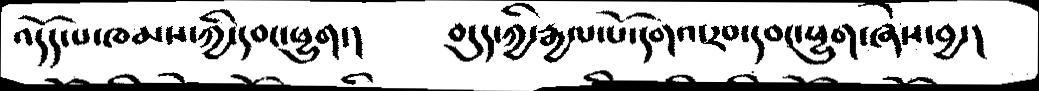འདོད་པ་ཁམས་ཀྱི་དབང་ཕྱུག་།      བདུད་ཀྱི་རྒྱལ་པོ་དགའ་རབ་དབང་ཕྱུག་ཞེས་བྱ་།
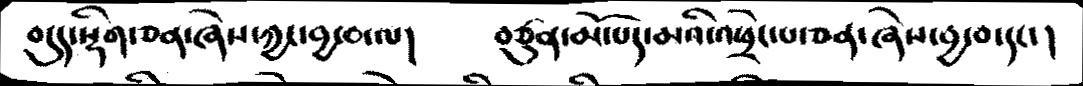བདུད་སྡིག་ཅན་ཞེས་ཀྱང་བྱ་བ་ལ།         བཙུན་མོ་པད་མའི་འཕྲེང་པ་ཅན་ཞེས་བྱ་བ་དང་།
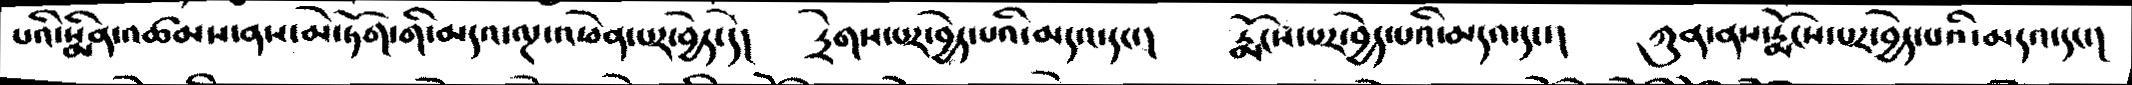པའི་སྨིན་འཚམས་ནས་མེ་ཏོག་གི་མདའ་ལྔ་འཕེན་པར་བྱེད་དེ།     དྲེགས་པར་བྱེད་པའི་མདའ་དང་།   རྨོངས་པར་བྱེད་པའི་མདའ་དང་།   ཀུན་ནས་རྨོངས་པར་བྱེད་པའི་མདའ་དང་།
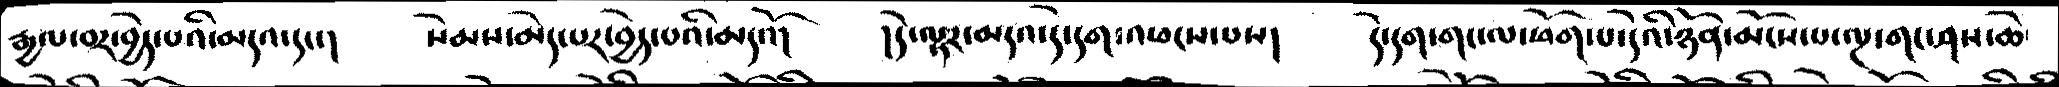རྒྱལ་བར་བྱེད་པའི་མདའ་དང་།     སེམས་མེད་པར་བྱེད་པའི་མདའོ།    །དེ་ལྟར་མདའ་དེ་དག་འཕངས་པས།     དེ་དག་གང་ལ་ཕོག་པ་དེའི་ཉོན་མོངས་པ་ལྔ་གང་ཤས་ཆེ་
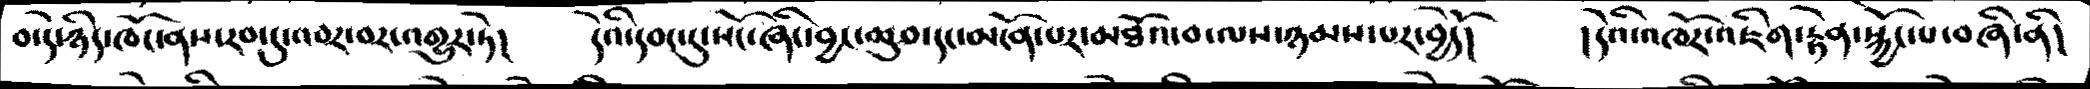བ་དེ་ཉིད་ཁོང་ནས་རབ་དུ་འབར་བར་འགྱུར་ཏེ།    དེའི་དབང་དུ་སོང་ཞིང་བྱང་ཆུབ་དང་མངོན་པར་མཐོའ་བ་ལས་ཉམས་པར་བྱེདོ།    །དེའི་འཁོར་འཇིག་རྟེན་སྐྱོང་པ་བཞི་ནི།
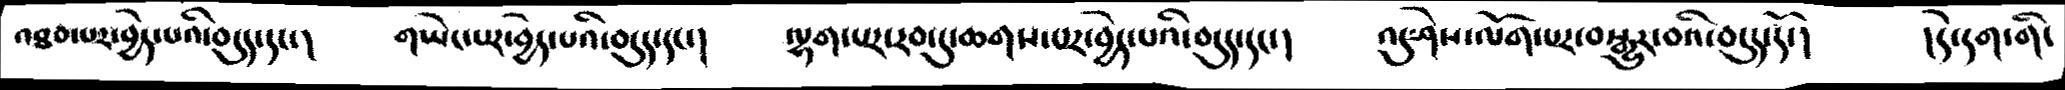འཐབ་པར་བྱེད་པའི་བདུད་དང་།  གཡེང་པར་བྱེད་པའི་བདུད་དང་།   ལྷག་པར་རབ་ཏུ་ཆགས་པར་བྱེད་པའི་བདུད་དང་།   འདུ་ཤེས་ལོག་པར་བསྒྱུར་བའི་བདུད་དོ།   །དེ་དག་གི་
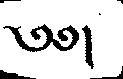༄༅།
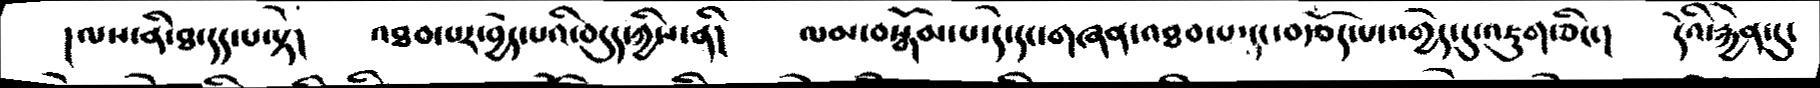།ལས་ནི་ཐ་དད་པ་སྟེ།  འཐབ་པར་བྱེད་པའི་བདུད་ཀྱིས་ནི།  ལམ་བསྒོམ་པ་དེ་དང་གཞན་འཐབ་པ་དང་བརྩོད་པ་འགྱེད་དུ་འཇུག་ཅིང་།  དེའི་རྐྱེན་དུ་
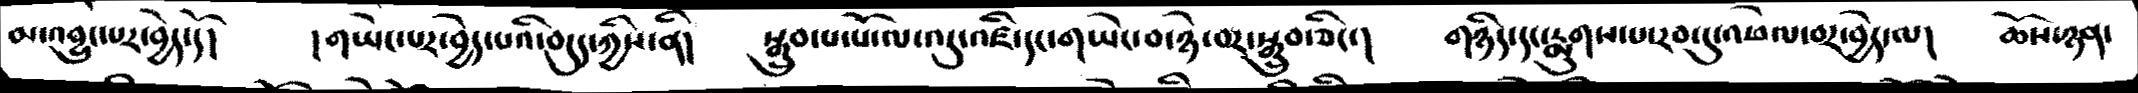མ་འབྱུང་པར་བྱེད་དོ།   །གཡེང་པར་བྱེད་པའི་བདུད་ཀྱིས་ནི།  སྒྲུབ་པ་པོ་ལ་འདུ་འཛི་དང་གཡེང་བ་ཉེ་བར་སྒྲུབ་ཅིང་།  གཉིད་དང་རྨུགས་པ་རབ་དུ་འཕེལ་བར་བྱེད་ལ།  ཆོས་ཉན་
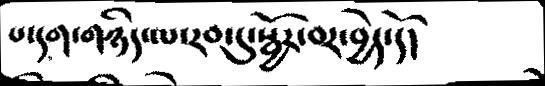པ་དག་གཉིད་ལ་རབ་དུ་སྦྱོར་བར་བྱེད་དོ།
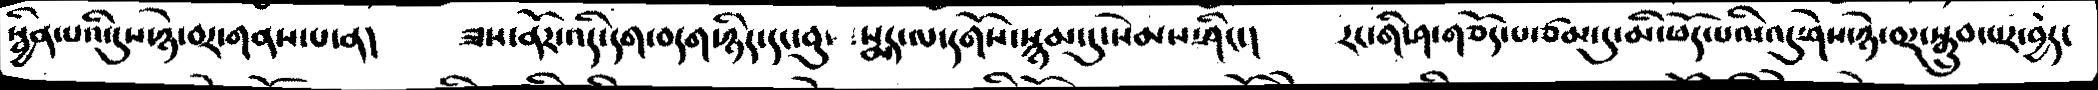སྦྱིན་པའི་དུས་ཉེ་བར་གནས་པ་ན།    ཟས་ནོར་འདི་དག་བདག་ཉིད་དང་བུ་སྨད་ལ་དགོས་སྙམ་དུ་སེམས་ཤིང་།   རང་གི་ཤ་གཅོད་པ་ཙམ་དུ་མི་ཕོད་པའི་འདུ་ཤེས་ཉེ་བར་སྒྲུབ་པར་བྱེད་
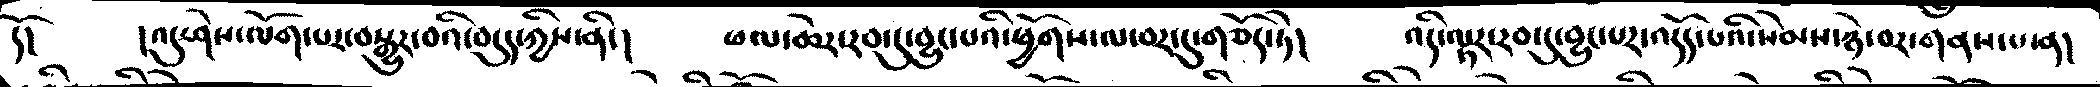དོ།     །འདུ་ཤེས་ལོག་པར་བསྒྱུར་བའི་བདུད་ཀྱིས་ནི་།     ཕལ་ཆེར་རབ་དུ་བྱུང་པའི་ཕྱོགས་ལ་བར་དུ་གཅོད་ཏེ།    འདི་ལྟར་རབ་དུ་བྱུང་པར་འདོད་པའི་སེམས་ཉེ་བར་གནས་པ་ན།
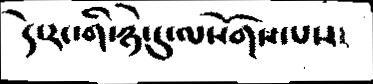དེ་རང་གི་ཉེ་དུ་ལསོགས་པས།
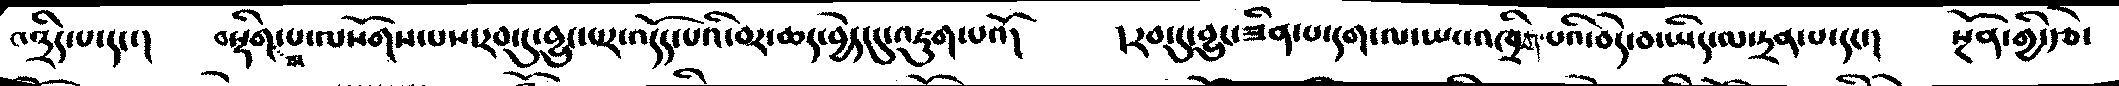འབྲིད་པ་དང་།  བསྡིགས་པ་ལསོགས་པས་རབ་དུ་བྱུང་པར་འདོད་པའི་བར་ཆད་བྱེད་དུ་འཇུག་པའོ།   །རབ་དུ་བྱང་ཟིན་པ་དག་ལ་ཡང་འཁྲིག་པའི་བདེ་བ་ཡིད་ལ་དྲན་པ་དང་།  སྔོན་གྱི་རྩེ་
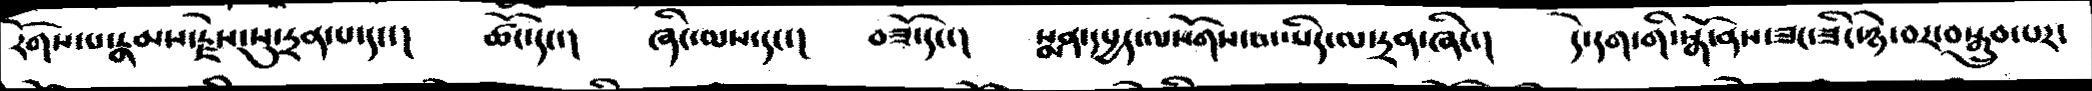རོགས་པ་རྣམས་རྗེས་སུ་དྲན་པ་དང་།   ཚོང་དང་།  ཞིང་ལས་དང་།   བཟོ་དང་།   སྨན་དཔྱད་ལསོགས་པ་ཡིད་ལ་དྲན་ཞིང་།  དེ་དག་གི་སྒོ་ནས་ཟང་ཟིང་ཉེ་བར་བསྒྲུབ་པར་
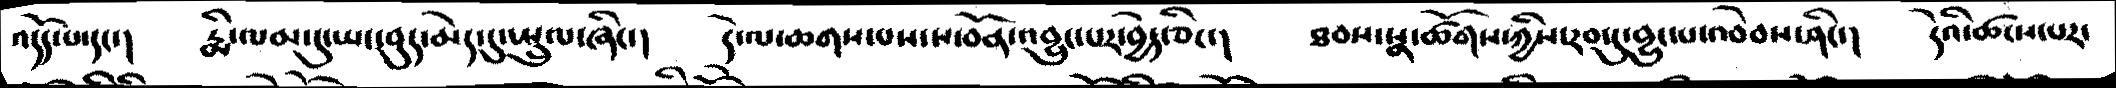འདོད་པ་དང་།  རྨི་ལམ་དུ་ཡང་བུད་མེད་དུ་སྤྲུལ་ཞིང་།   དེ་ལ་ཆགས་པས་ས་བོན་འབྱུང་པར་བྱེད་ཅིང་།  ཐབས་སྣ་ཚོགས་ཀྱིས་རབ་ཏུ་བྱུང་པ་འབེབས་ཤིང་།  དེའི་ཚངས་པར་
